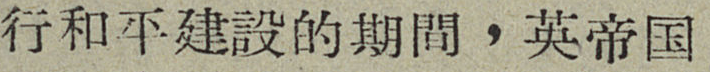行和平建設的期間，英帝国
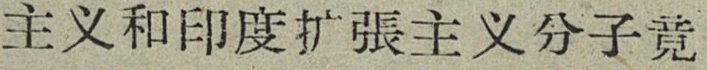主义和印度扩張主义分子竟
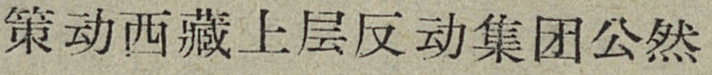策动西藏上层反动集团公然
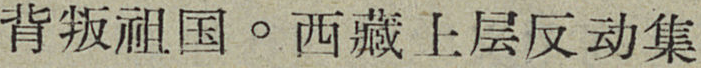被判祖国。西藏上层反动集
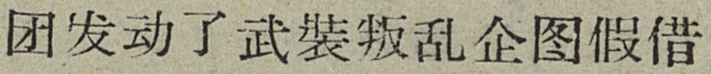团发动了武装叛乱企图假借
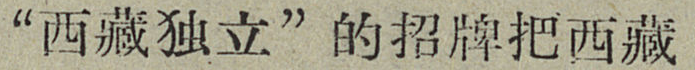“西藏独立”的招牌把西藏
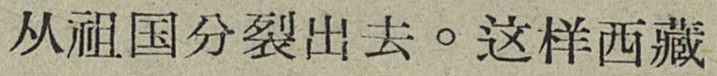从祖国分裂出去。这样西藏
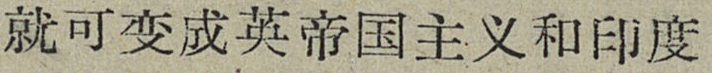就可变成英帝国主义和印度
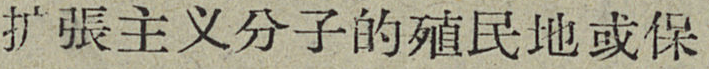扩張主义分子的殖民地或保
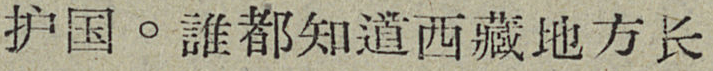护国。誰都知道西藏地方长
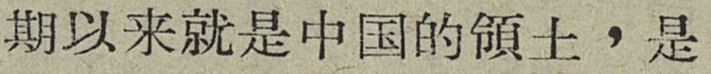期以来就是中国的領土，是
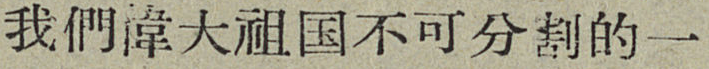我們偉大祖国不可分割的一
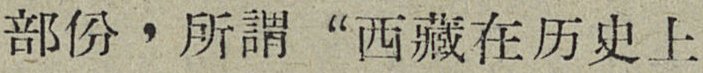部分，所謂“西藏在历史上
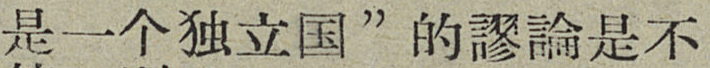十一个独立国”的謬論是不
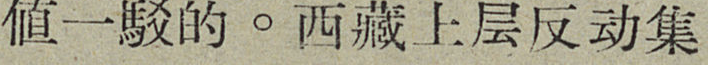值一駁的。西藏上层反动集
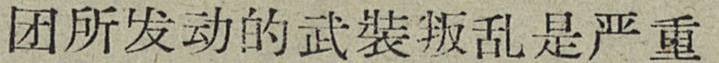团所发动的武装叛乱是严重
